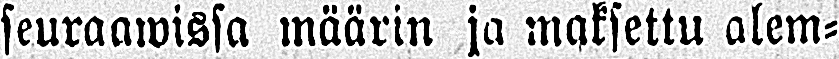seuraawissa määrin ja maksettu alem-
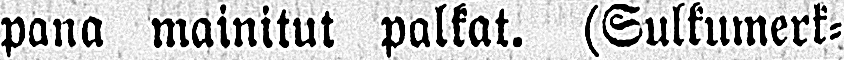pana mainitut palkat. (Sulkumerk-
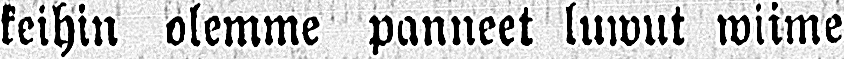keihin olemme panneet luwut wiime
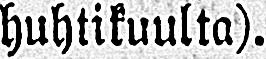huhtikuulta).
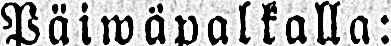Päiwäpalkalla:
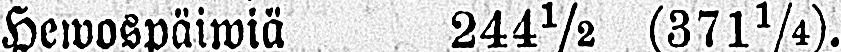Hewospäiwiä 244½ (371¼).
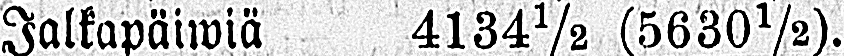Jalkapäiwiä 4134½ (5630½).
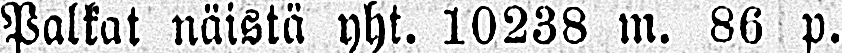Palkat näistä yht. 10238 m. 86 p.
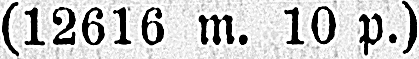(12616 m. 10 p.)
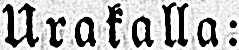Urakalla:
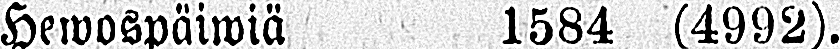Hewospäiwiä 1584 (4992).
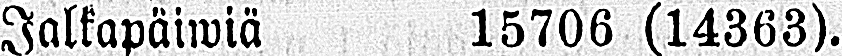Jalkapäiwiä 15706 (14363).
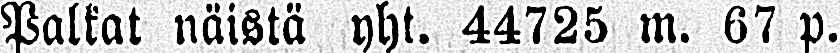Palkat näistä yht. 44725 m. 67 p.
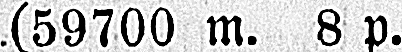(59700 m. 8 p.
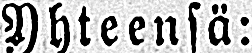Yhteensä:
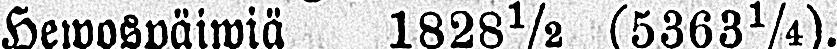Hewospäiwiä 1828½ (5363¼).
